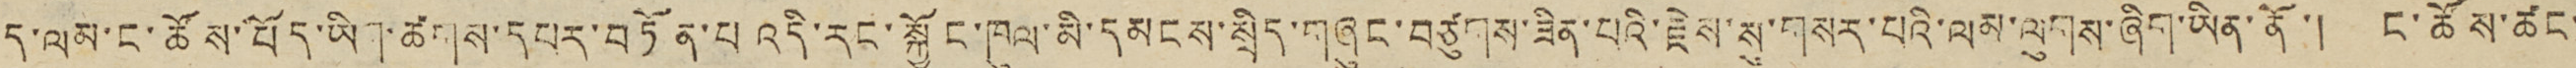ད་ལམ་ང་ཚོས་བོད་ཡིག་ཚགས་དཔར་བཏོན་པ འདི་རང་སྐྱོང་ཁུལ་མི་དམངས་སྲིད་གཞུང་བཙུགས་ཟིན་པའི་རྗེས་སུ་གསར་པའི་ལམ་ལུགས་ཞིག་ཡིན་ནོ་། ང་ཚོས་ཚང་
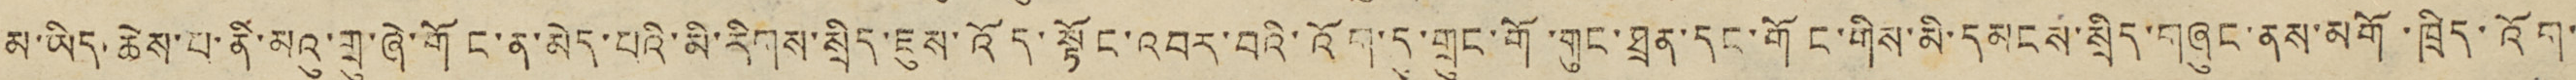མ་ཡིད་ཆེས་པ་ནི་མའུ་གྲུ་ཞེ་གོང་ན་མེད་པའི་མི་རིགས་སྲིད་ཇུས་འོད་སྟོང་འབར་བའི་འོག་དུ་གྲུང་གོ་གུང་ཐྲན་དང་གོང་གིས་མི་དམངས་སྲིད་གཞུང་ནས་མགོ་ཁྲིད་འོག་
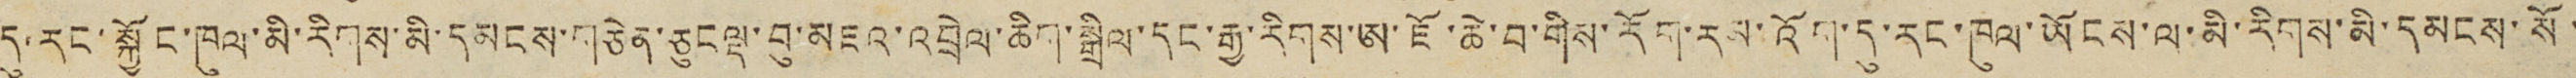དུ་རང་སྐྱོང་ཁུལ་མི་རིགས་མི་དམངས་གཅེན་ཅུངལྡ་བུ་མཇའ་འབྲེལ་ཆིག་སྒྲིལ་དང་རྒྱ་རིགས་ཨ་ཇོ་ཆེ་བ་གིས་རོག་རས་འོག་དུ་རང་ཁུལ་ཡོངས་ལ་མི་རིགས་མི་དམངས་སོ་
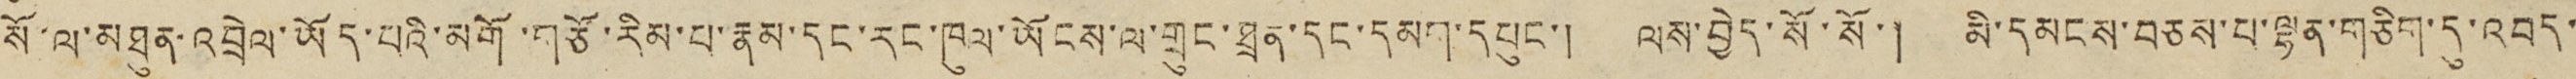སོ་ལ་མཐུན་འབྲེལ་ཡོད་པའི་མགོ་གཙོ་རིམ་པ་རྣམ་དང་རང་ཁུལ་ཡོངས་ལ་གྲུང་ཐྲན་དང་དམག་དཔུང་། ལས་བྱེད་སོ་སོ་། མི་དམངས་བཅས་པ་ལྷན་གཅིག་དུ་འབད་
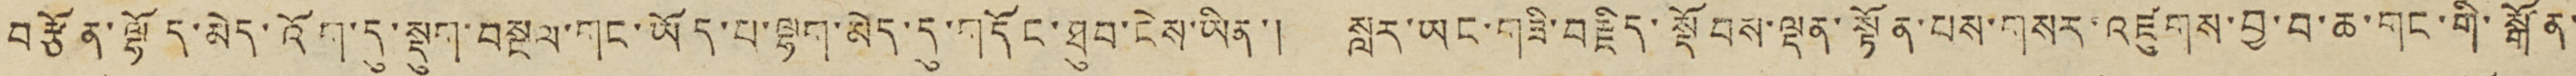བརྩོན་ལྷོད་མེད་འོག་དུ་སྡུག་བསྔལ་གང་ཡོད་པ་ལྷག་མེད་དུ་གདོང་ཐུབ་ངེས་ཡིན་། སླར་ཡང་གཟི་བརྗོད་སྡོབས་ལྡན་སྟོན་བས་གསར་འཛུགས་བྱ་བ་ཆ་གང་གི་སྒོན་
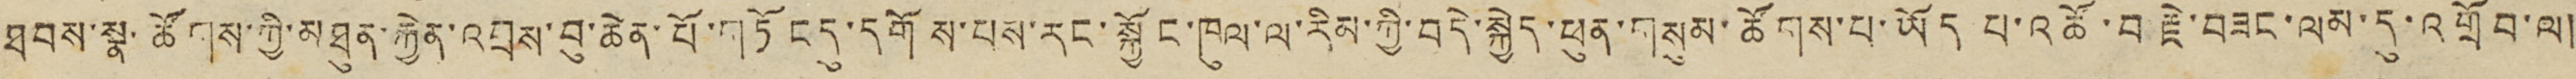ཐབས་སྣ་ཚོགས་ཀྱི་མཐུན་རྐྱེན་འབྲས་བུ་ཆེན་པོ་གཏོང དུ་དགོས་པས་རང་སྐྱོང་ཁུལ་ལ་རིམ་ཀྱི་བདེ་སྐྱེད་ཕུན་གསུམ་ཚོགས་པ་ཡོད པ་འཚོ་བརྗེ་བཟང་ལམ་དུ་འགྲོ བ་ལ།
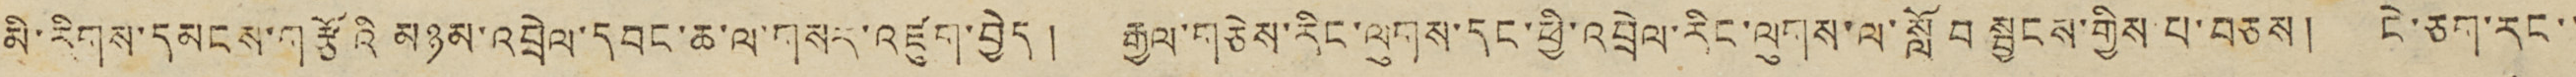མི་རིགས་དམངས་གརྩོའི མཉམ་འབྲེལ་དབང་ཆ་ལ་གསར་འཛུག་བྱེད། རྒྱལ་གཅེས་རིང་ལུགས་དང་ཕྱི་འབྲེལ་རིང་ལུགས་ལ་སློབ སྦྱངས་གྱིས པ་བཅས། ངེ་ཅག་རང་་
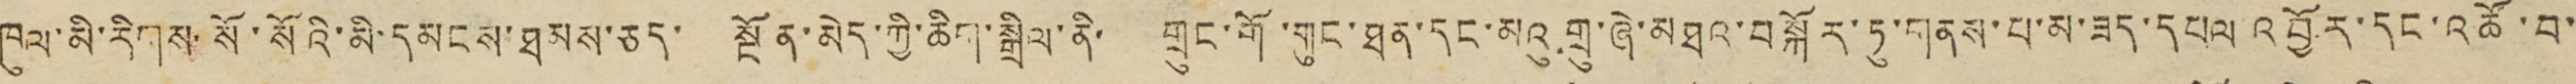ཁུལ་མི་རིགས་སོ་སོའི་མི་དམངས་ཐམས་ཅད་ སྔོན་མེད་ཀྱི་ཆིག་སྒྲིལ་ནི་ གྲུང་གོ་གུང་ཐན་དང་མའུ་གྲུ་ཞེ་མཐའ་བསྐོར་ཏུ་གནས་པ་མ་ཟད་དཔལ འབྱོར་དང་འཚོ་བ་
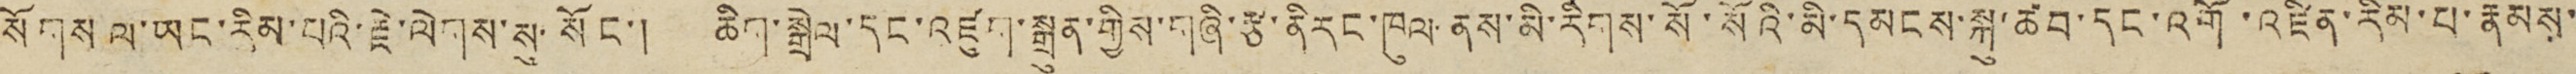སོགས ལ་ཡང་རིམ་པའི་རྗེ་ལེགས་སུ་སོང་། ཆིག་སྒྲེལ་དང་འཛུག་སྒྲུན་གྱིས་གཞི་རྩ་ནིརང་ཁུལ་ནས་མི་རིགས་སོ་སོའི་མི་དམངས་སྐུ་ཚབ་དང་འགོ་འཛིན་རིམ་པ་རྣམས་
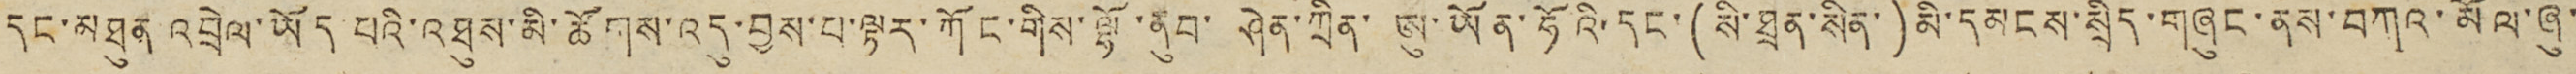དང་མཐུན འབྲེལ་ཡོད པའི་འཐུས་མི་ཚོགས་འདུ་བྱས་པ་ལྟར་ཀོང་གིས་ལྷོ་ནུབ་ ཤེན་ཀྲིན་ ཨུ་ཡོན་ཧོའི་དང་(སི་ཐྲན་སིན་)མི་དམངས་སྲིད་གཞུང་ནས་བཀའ་མོལ་ཞུ་
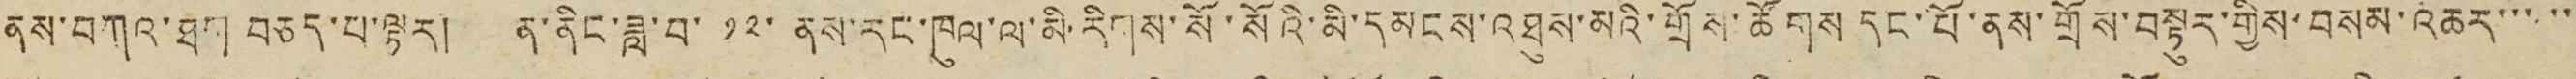ནས་བཀའ་ཐག བཅད་པ་ལྟར། ན་ནིང་ཟླ་བ་ ༡༢་ ནས་རང་ཁུལ་ལ་མི་རིགས་སོ་སོའི་མི་དམངས་འཐུས་མའི་གྲོས་ཚོགས དང་པོ་ནས་གྲོས་བསྟུར་གྱིས་བསམ་འཆར་་་་་
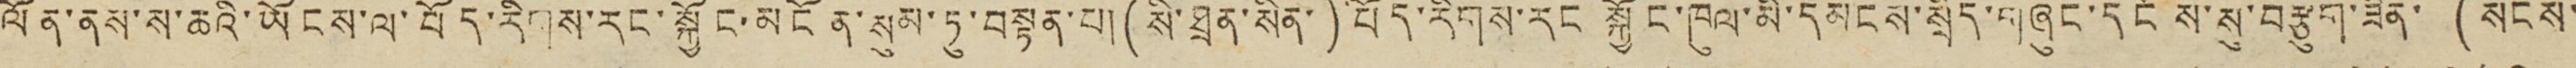ལོན་ནས་ས་ཆའི་ཡོངས་ལ་བོད་རིགས་རང་སྐྱོང་མངོན་སུམ་ཏུ་བསྟན་པ།(སི་ཐྲན་སིན་)བོད་རིགས་རང སྐྱོང་ཁུལ་མི་དམངས་སྲིད་གཞུང་དངོས་སུ་བརྩུག་ཟིན་ (སངས་
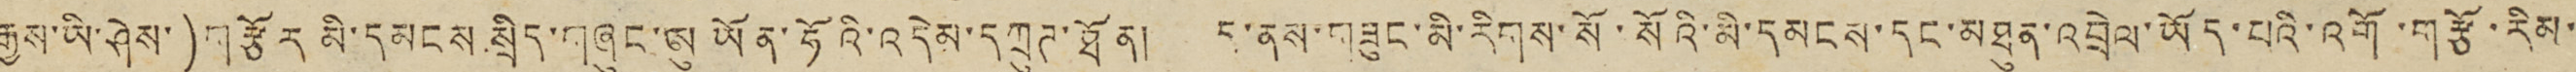རྒྱས་ཡི་ཤེས་)གརྩོར མི་དམངས སྲིད་གཞུང་ཨུ ཡོན་ཧོའི་འདེམ་དཀྲུཊ་ཐོན། ད་ནས་གཟུང་མི་རིགས་སོ་སོའི་མི་དམངས་དང་མཐུན་འབྲེལ་ཡོད་པའི་འགོ་གརྩོ་རིམ་
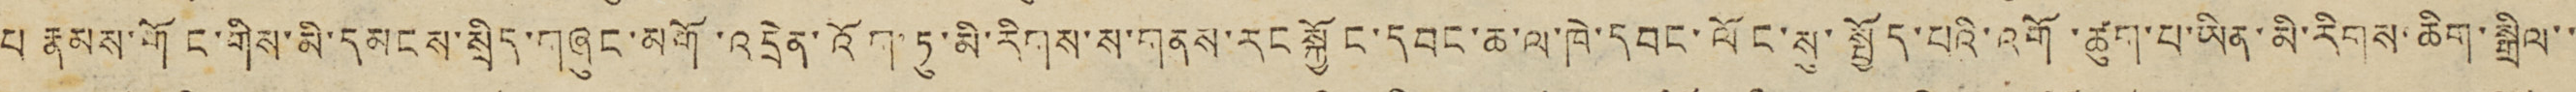པ རྣམས་གོང་གིས་མི་དམངས་སྲིད་གཞུང་མགོ་འདྲེན་འོག་ཏུ་མི་རིགས་ས་གནས་རང སྐྱོང་དབང་ཆ་ལ་ཁེ་དབང་ལོང་སུ་སྤྱོད་པའི་འགོ་ཚུག་པ་ཡིན་མི་རིགས་ཆིག་སྒྲིལ་་
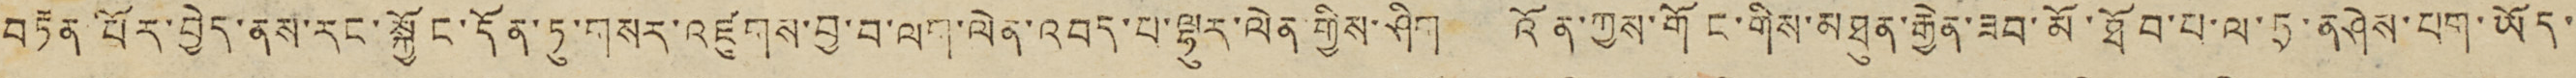བརྟན་པོར་བྱེད་ནས་རང་སྐྱོང་དོན་ཏུ་གསར་འཛུགས་བྱ་བ་ལག་ལེན་འབད་པ་ལྷུར་ལེན གྱིས་ཤིག འོན་ཀྱས་གོང་གིས་མཐུན་རྒྱེན་ཟབ་མོ་ཐོབ་པ་ལ་ཏྲ་ནཤེས་པག་ཡོད་
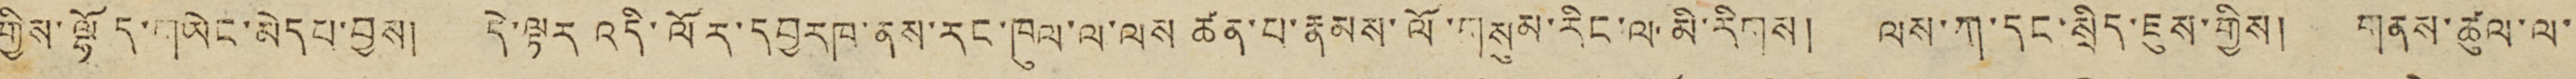གྱིས་ལྷོད་གཡེང་མེདབ་བྱས། དེ་ལྟར འདི་ལོར་དབྱརཁ་ནས་རང་ཁུལ་ལ་ལས ཚན་པ་རྣམས་སོ་གསུམ་རིང་ལ་མི་རིགས། ལམ་ཀ་དང་སྲིད་ཇུས་གྱིས། གནས་ཚུལ་ལ་
